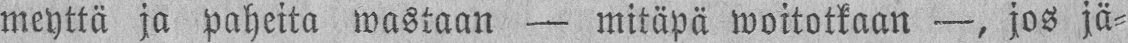meyttä ja paheita wastaan — mitäpä woitotkaan —, jos jä-
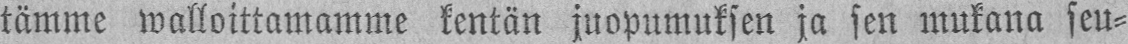tämme walloittamamme kentän juopumuksen ja sen mukana seu-
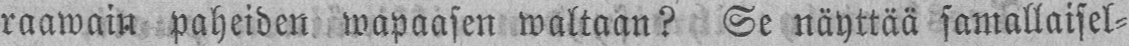raawain paheiden wapaasen waltaan? Se näyttää samallaisel-
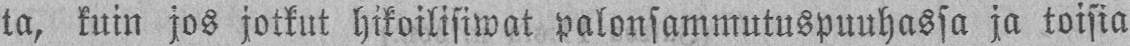ta, kuin jos jotkut hikoilisiwat palonsammutuspuuhassa ja toisia
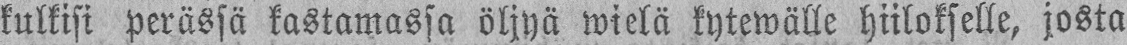kulkisi perässä kastamassa öljyä wielä kytewälle hiilokselle, josta
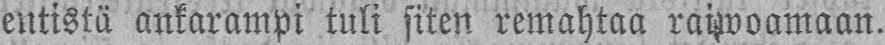entistä ankarampi tuli siten remahtaa raiwoamaan.
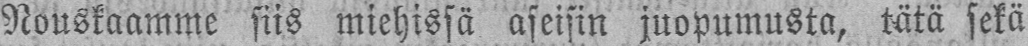Nouskaamme siis miehissä aseisin juopumusta, tätä sekä
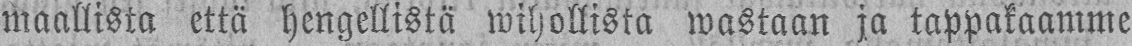maallista että hengellistä wihollista wastaan ja tappakaamme
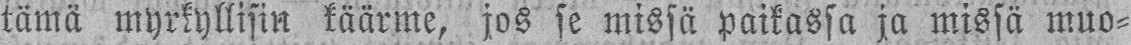tämä myrkyllisin käärme, jos se missä paikassa ja missä muo-
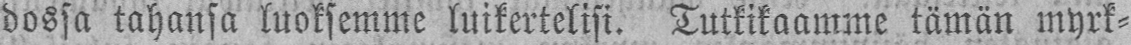dossa tahansa luoksemme luikertelisi. Tutkikaamme tämän myrk-
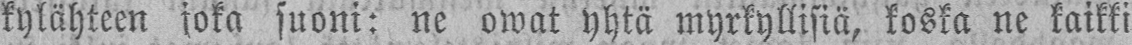kylähteen joka suoni: ne owat yhtä myrkyllisiä, koska ne kaikki
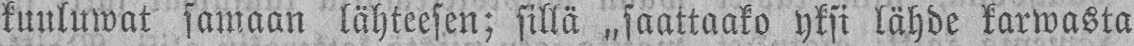kuuluwat samaan lähteesen; sillä „saattaako yksi lähde karwasta
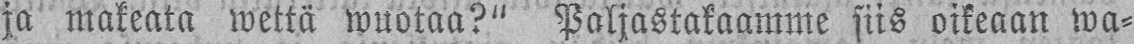ja makeata wettä wuotaa?" Paljastakaamme siis oikeaan wa-
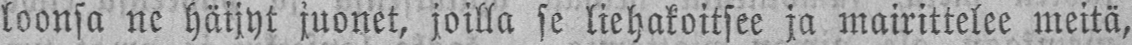loonsa ne häijyt juonet, joilla se liehakoitsee ja mairittelee meitä,
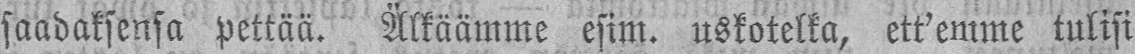saadaksensa pettää. Älkäämme esim. uskotelka, ett'emme tulisi
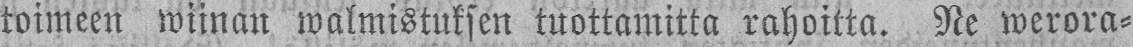toimeen wiinan walmistuksen tuottamitta rahoitta. Ne werora-
